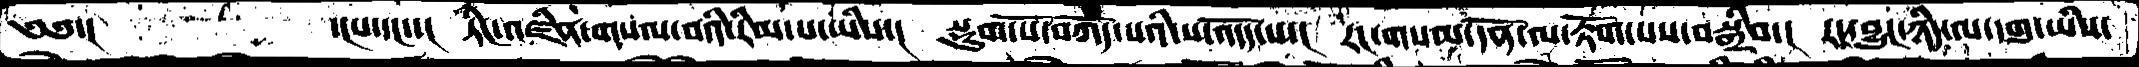༄༅་།   ་།པ་དང་་།  ཏིང་འཛིན་གསལ་བའི་རིམ་པ་ཡིས་།  སྡུག་པོ་བཀོད་པའི་ས་འདོད་པ་།  རང་གསལ་དོན་ལ་རྟོགས་པས་བསྒྲིབ་།  རང་བྱུང་ཉིད་ལ་དགུ་ཡིས་
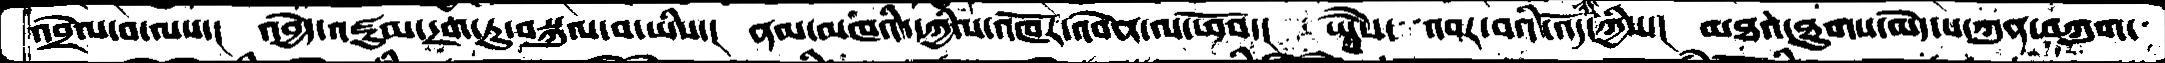འབྲེལ་བ་ལས་།  འབྱེད་འཛུམ་དྲག་ཏུ་བསྐུལ་བ་ཡིས་། ནམ་མཁའི་དཀྱིལ་འཁོར་འབེན་ལ་ཕོབ་།  ཡཻས་་་འབར་བའི་འོད་ཉིད་ཀྱིས་།  མཐའ་ཐུགས་མེད་པ་ཀུན་བཀུག་
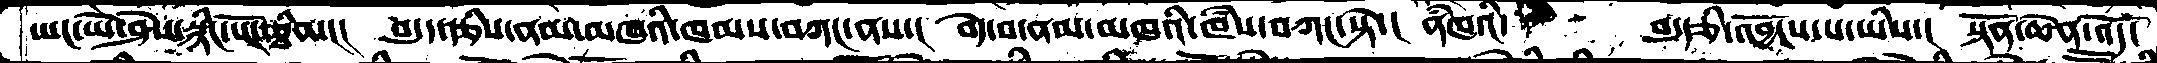ཡང་ཡེ་ཤེས་སྙིང་པོར་ཅྭིན་།  བདུད་རྩིས་ནམ་མཁའི་ཁམས་བཀང་ནས་།  བདེ་བ་ནམ་མཁའི་ཁཾས་བཀང་སྟེ་།  ནཾམཁའི་  བདུརྩི་འབྱོངས་པ་ཡིས་།  སྟོན་ཆེན་འོད་
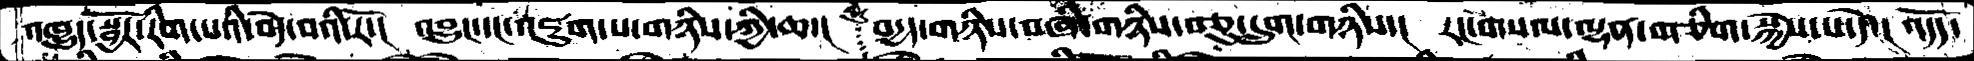འཁྱུད་སྦྱོར་རིག་པའི་བདེ་བའི་རོ་།  འབྱུང་དང་འཇུག་པ་གཉིས་ཀྱི་ཆ་།   བདྱད་གཉིས་བཞི་གཉིས་བཅུ་དྲུག་གཉིས་།  རང་གསལ་ལྷན་གཅིག་སྐྱེས་པ་དེ་།  འདོད་
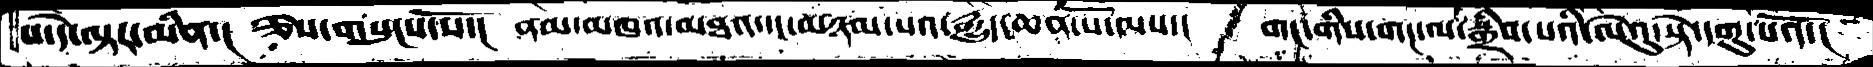པ་དེ་ལྟར་མིན་།  ཅེས་གསུངས་སོ་།  ནམ་མཁའ་མཐའ་དང་མཉམ་པའིང་རྒྱུད་ཆེན་པོ་ལས་།   གང་གིས་གང་སྒྲིབ་པའི་ལེའུ་སྟེ་དགུ་པའོ་།
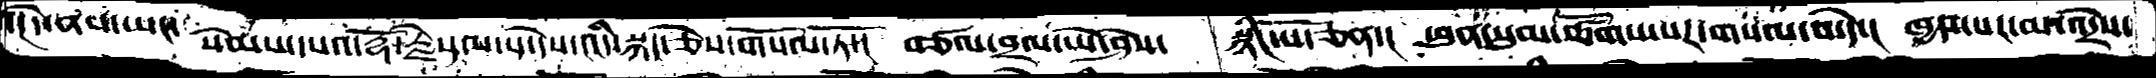་།དེ་ནས་ཡང་སེམས་དཔའ་རྡོ་རྗེས་ལ་དེས་འདི་སྐད་ཅེས་གསོལ་ཏོ་།  བཙལ་བྲལ་ཡེ་ཤེས་   སྙིང་པོ་ཅན་།  ཕུན་སུམ་ཚོགས་པར་གསལ་མེད་།  ཁྱད་པར་མ་འདྲེས་
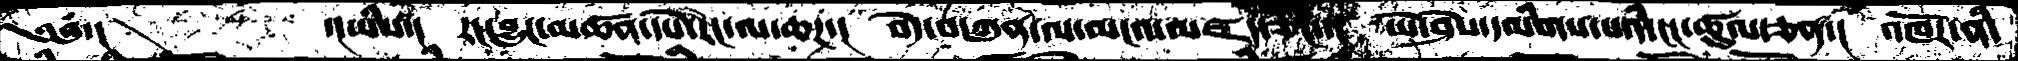༄༅་།     ་།ཡིས་།  རང་བྱུང་མཚན་དཔེ་རང་ལ་ཆཌ་།  བདེ་བ་ཀུན་ལ་མངའ་མཛད་ཅིང་།  ཡེ་ཤེས་དམིགས་པའི་ངང་ཚུལ་ཅན་།  འཁོར་ནི་
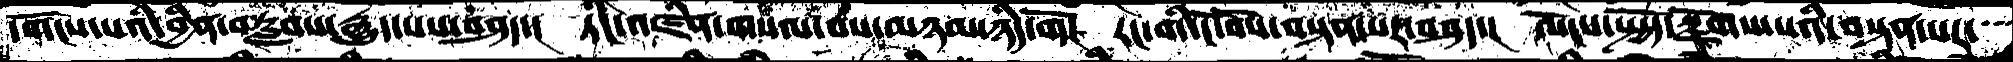དགོངས་པའི་བྱིན་བརླབས་རྒྱུད་པས་བཤད་།  ཏིང་འཛིན་གསལ་བས་མཉམ་ཉིད་གོ།  རང་གི་ངོ་བོས་བསྟན་པར་བཤད་།  ལོངས་སྤྱོད་སྫོགས་པའི་བསྟན་པར་
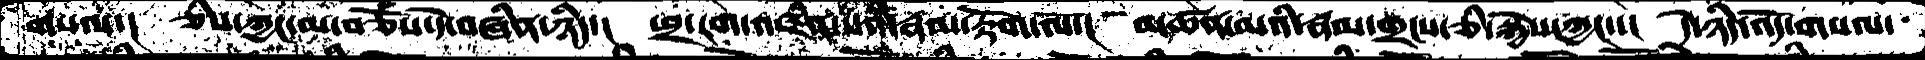གསལ་།  ཅིས་ཀྱང་མ་བཅོས་དེ་བཞིན་ཉིད་།  ཕྲ་རག་འཛིན་པའི་རྣམ་རྟོག་ལ་།  མཚན་མའི་རྣམ་གྲངས་ཅི་སྐྱེས་ཀྱང་་།  དེ་ཉིད་འོད་གསལ་
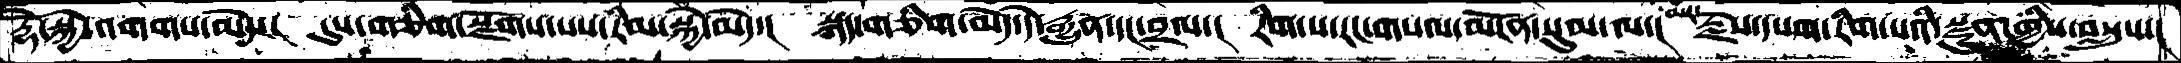རྡོེ་སྐྱེ་འགགས་མེད་།  དུས་གཅིག་སྫོགས་པས་རིན་སྐྱེ་མེད་།  སྐད་ཅིག་མེད་དེ་རྒྱུན་དང་བྲལ་།  རིག་པ་རང་གསལ་མངོན་སུམ་ལ་།  རྗེས་དཔག་རིག་པའི་སྫུན་གྱིས་བསྲུངས་།
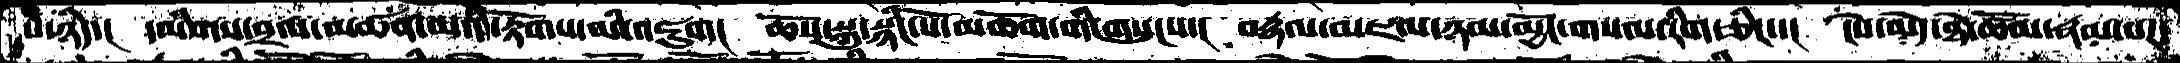པ་ཉིད་།  དམིགས་བྲལ་མཚན་མའི་རྟོགས་མི་འཇུག།  ཆོས་སྐུ་སྙིང་པོ་མཆོག་གི་གསུངས་།  བརྡལ་མཇལ་ཉམ་མྱོང་གསལ་རིག་ཅིང་་།  ངེས་མེད་ཐེ་ཚོམ་རྣམ་པར་
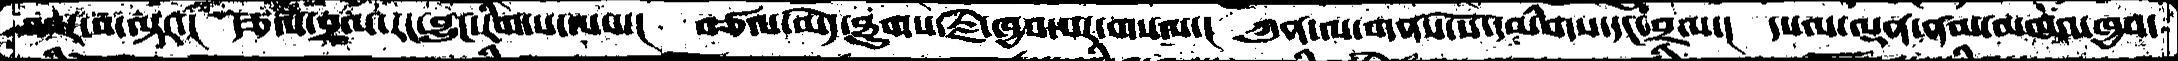འབར་བ་ལྟར་། རྩལ་བྲལ་རང་བྱུང་རིག་པ་ལས་། བཙལ་མེད་ཐུགས་རྗེ་ཁྱབ་པར་གསལ་། ཀུན་ལ་གནས་སོ་དམིགས་དང་བྲལ་། དཔལ་ལྡན་ནམ་མཁས་ཁྱབ་
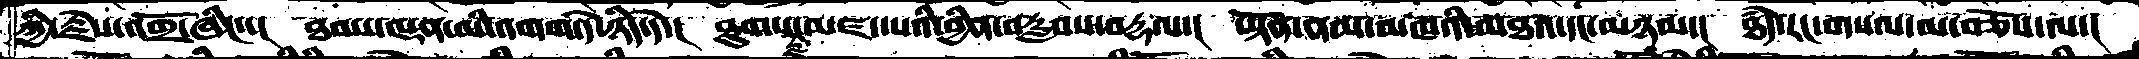ཀྱི་རྗེས་འགྲོ་ཞིང་་།  ཐབས་ལྡན་མི་འགག་དེ་ཉིད་དེ་། ཐུགས་དང་མཛད་པའི་བྱིན་བརླབས་བརྡལ་།  ཡྟོན་ནམ་མཁའི་མཐའ་དང་མཉམ་། ཐདཾ་རང་གསལ་མ་བཅོས་ལ་།
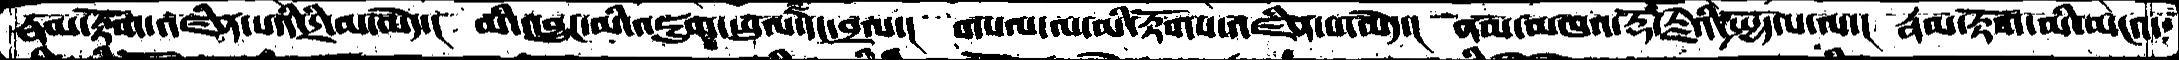རྣམ་རྟོག་འཛིན་པའི་དྲི་མ་མེད་། མི་འབྱུང་མི་འཇུག་ཡུལ་དང་བྲལ་། གསལ་ལ་མི་རྟོགས་འཛིན་པ་མེད་། ནམ་མཁའ་རྡོ་རྗེའི་སྤྱོད་པ་ལ་། རྣམ་རྟོག་མི་མངའ་
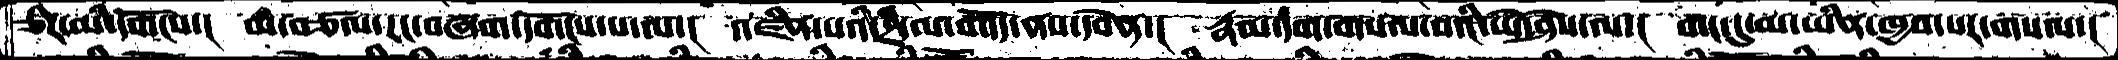ཅིར་མི་དགོངས་། མི་བཙལ་རང་བཞག་དགོངས་པ་ལ་། འཛིན་པའི་དྲི་ལ་གདོད་ནས་བདེན་། རྣམ་དག་གསལ་བའི་ཡེ་ཤེས་ལ་། གང་དུ་མ་ཡིན་ཁྱབ་པར་གསལ་།
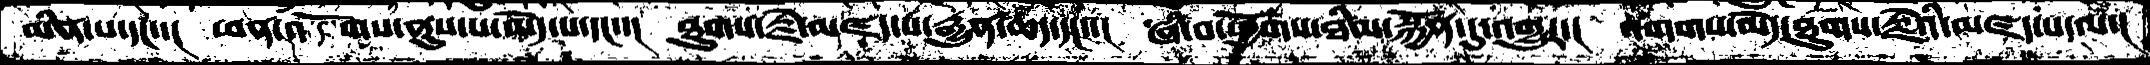མིན་པ་དང་་།  ཕན་འདོགས་ནུས་པ་མེད་པ་དང་་།  ཐུགས་རྗེ་མཛད་པ་རྒྱུན་ཆད་དང་་།  ཞི་བ་ཕྱོགས་ཐིམ་སྐྱོན་དུ་འགྱུར་།  འགགས་མེད་ཐུགས་རྗེའི་མཛད་པ་ལ་།
